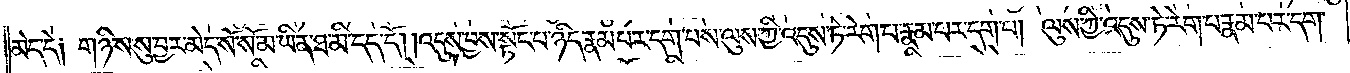མེད་དེ༑ གཉིས་སུ་བྱར་མེད་སོ་སོ་མ་ཡིན་ཐ་མི་དད་དོ། །འདུས་བྱས་སྟོང་པ་ཉིད་རྣམ་པར་དག་པས་ལུས་ཀྱི་འདུས་ཏེ་རེག་པ་རྣམ་པར་དག་པ། ལུས་ཀྱི་འདུས་ཏེ་རེག་པ་རྣམ་པར་དག་
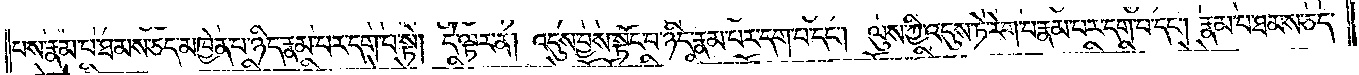པས་རྣམ་པ་ཐམས་ཅད་མཁྱེན་པ་ཉིད་རྣམ་པར་དག་པ་སྟེ། དེ་ལྟར་ན། འདུས་བྱས་སྟོང་པ་ཉིད་རྣམ་པར་དག་པ་དང༌། ལུས་ཀྱི་འདུས་ཏེ་རེག་པ་རྣམ་པར་དག་པ་དང༌། རྣམ་པ་ཐམས་ཅད་
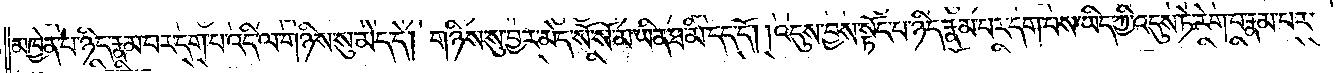མཁྱེན་པ་ཉིད་རྣམ་པར་དག་པ་འདི་ལ་གཉིས་སུ་མེད་དེ། གཉིས་སུ་བྱར་མེད་སོ་སོ་མ་ཡིན་ཐ་མི་དད་དོ། །འདུས་བྱས་སྟོང་པ་ཉིད་རྣམ་པར་དག་པས་ཡིད་ཀྱི་འདུས་ཏེ་རེག་པ་རྣམ་པར་
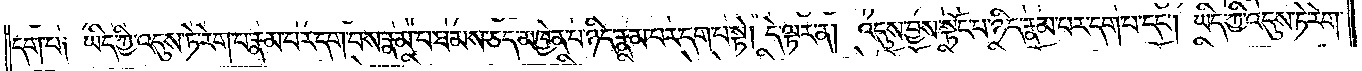དག་པ༑ ཡིད་ཀྱི་འདུས་ཏེ་རེག་པ་རྣམ་པར་དག་པས་རྣམ་པ་ཐམས་ཅད་མཁྱེན་པ་ཉིད་རྣམ་པར་དག་པ་སྟེ། དེ་ལྟར་ན། འདུས་བྱས་སྟོང་པ་ཉིད་རྣམ་པར་དག་པ་དང༌། ཡིད་ཀྱི་འདུས་ཏེ་རེག་
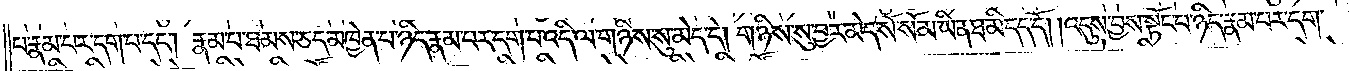པ་རྣམ་པར་དག་པ་དང༌། རྣམ་པ་ཐམས་ཅད་མཁྱེན་པ་ཉིད་རྣམ་པར་དག་པ་འདི་ལ་གཉིས་སུ་མེད་དེ། གཉིས་སུ་བྱར་མེད་སོ་སོ་མ་ཡིན་ཐ་མི་དད་དོ། །འདུས་བྱས་སྟོང་པ་ཉིད་རྣམ་པར་དག་
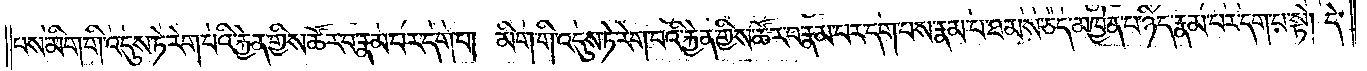པས་མིག་གི་འདུས་ཏེ་རེག་པའི་རྐྱེན་གྱིས་ཚོར་བ་རྣམ་པར་དག་པ། མིག་གི་འདུས་ཏེ་རེག་པའི་རྐྱེན་གྱིས་ཚོར་བ་རྣམ་པར་དག་པས་རྣམ་པ་ཐམས་ཅད་མཁྱེན་པ་ཉིད་རྣམ་པར་དག་པ་སྟེ། དེ་
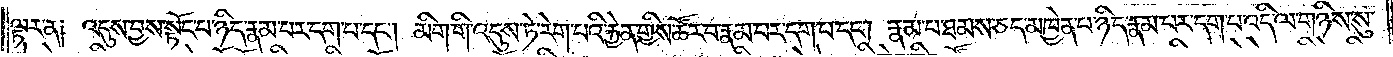ལྟར་ན༑ འདུས་བྱས་སྟོང་པ་ཉིད་རྣམ་པར་དག་པ་དང༌། མིག་གི་འདུས་ཏེ་རེག་པའི་རྐྱེན་གྱིས་ཚོར་བ་རྣམ་པར་དག་པ་དང༌། རྣམ་པ་ཐམས་ཅད་མཁྱེན་པ་ཉིད་རྣམ་པར་དག་པ་འདི་ལ་གཉིས་སུ་
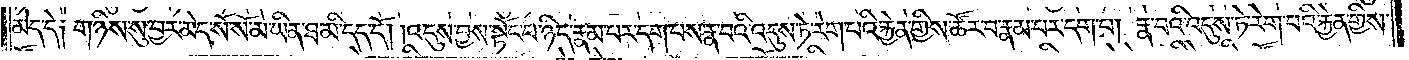མེད་དེ༑ གཉིས་སུ་བྱར་མེད་སོ་སོ་མ་ཡིན་ཐ་མི་དད་དོ། །འདུས་བྱས་སྟོང་པ་ཉིད་རྣམ་པར་དག་པས་རྣ་བའི་འདུས་ཏེ་རེག་པའི་རྐྱེན་གྱིས་ཚོར་བ་རྣམ་པར་དག་པ། རྣ་བའི་འདུས་ཏེ་རེག་པའི་རྐྱེན་གྱིས་
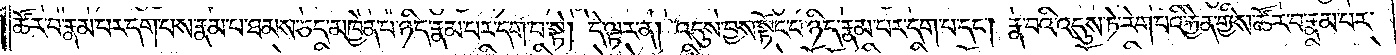ཚོར་བ་རྣམ་པར་དག་པས་རྣམ་པ་ཐམས་ཅད་མཁྱེན་པ་ཉིད་རྣམ་པར་དག་པ་སྟེ། དེ་ལྟར་ན། འདུས་བྱས་སྟོང་པ་ཉིད་རྣམ་པར་དག་པ་དང༌། རྣ་བའི་འདུས་ཏེ་རེག་པའི་རྐྱེན་གྱིས་ཚོར་བ་རྣམ་པར་
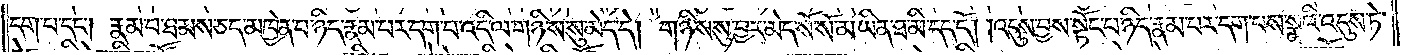དག་པ་དང༌། རྣམ་པ་ཐམས་ཅད་མཁྱེན་པ་ཉིད་རྣམ་པར་དག་པ་འདི་ལ་གཉིས་སུ་མེད་དེ། གཉིས་སུ་བྱར་མེད་སོ་སོ་མ་ཡིན་ཐ་མི་དད་དོ། །འདུས་བྱས་སྟོང་པ་ཉིད་རྣམ་པར་དག་པས་སྣའི་འདུས་ཏེ་
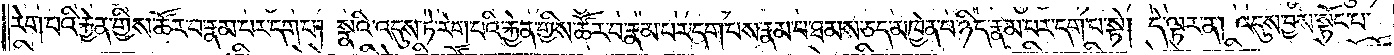རེག་པའི་རྐྱེན་གྱིས་ཚོར་བ་རྣམ་པར་དག་པ། སྣའི་འདུས་ཏེ་རེག་པའི་རྐྱེན་གྱིས་ཚོར་བ་རྣམ་པར་དག་པས་རྣམ་པ་ཐམས་ཅད་མཁྱེན་པ་ཉིད་རྣམ་པར་དག་པ་སྟེ། དེ་ལྟར་ན། འདུས་བྱས་སྟོང་པ་
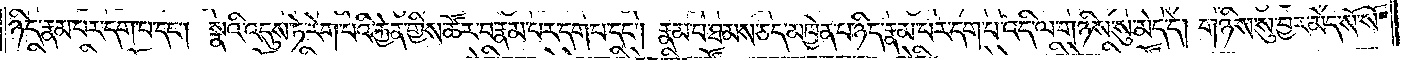ཉིད་རྣམ་པར་དག་པ་དང༌། སྣའི་འདུས་ཏེ་རེག་པའི་རྐྱེན་གྱིས་ཚོར་བ་རྣམ་པར་དག་པ་དང༌། རྣམ་པ་ཐམས་ཅད་མཁྱེན་པ་ཉིད་རྣམ་པར་དག་པ་འདི་ལ་གཉིས་སུ་མེད་དེ། གཉིས་སུ་བྱར་མེད་སོ་སོ་
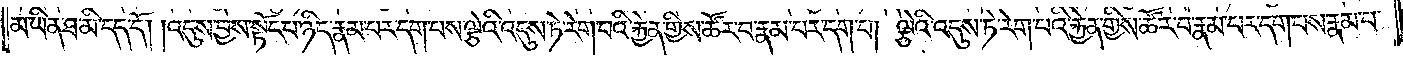མ་ཡིན་ཐ་མི་དད་དོ། །འདུས་བྱས་སྟོང་པ་ཉིད་རྣམ་པར་དག་པས་ལྕེའི་འདུས་ཏེ་རེག་པའི་རྐྱེན་གྱིས་ཚོར་བ་རྣམ་པར་དག་པ། ལྕེའི་འདུས་ཏེ་རེག་པའི་རྐྱེན་གྱིས་ཚོར་བ་རྣམ་པར་དག་པས་རྣམ་པ་
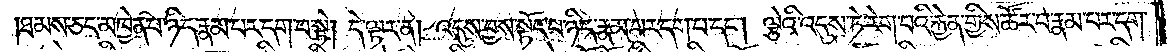ཐམས་ཅད་མཁྱེན་པ་ཉིད་རྣམ་པར་དག་པ་སྟེ། དེ་ལྟར་ན། འདུས་བྱས་སྟོང་པ་ཉིད་རྣམ་པར་དག་པ་དང༌། ལྕེའི་འདུས་ཏེ་རེག་པའི་རྐྱེན་གྱིས་ཚོར་བ་རྣམ་པར་དག་
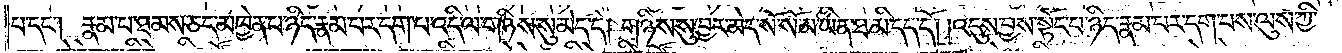པ་དང༌། རྣམ་པ་ཐམས་ཅད་མཁྱེན་པ་ཉིད་རྣམ་པར་དག་པ་འདི་ལ་གཉིས་སུ་མེད་དེ། གཉིས་སུ་བྱར་མེད་སོ་སོ་མ་ཡིན་ཐ་མི་དད་དོ། །འདུས་བྱས་སྟོང་པ་ཉིད་རྣམ་པར་དག་པས་ལུས་ཀྱི་
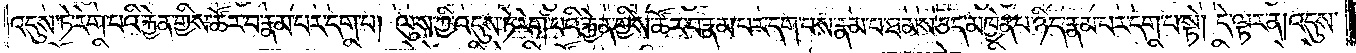འདུས་ཏེ་རེག་པའི་རྐྱེན་གྱིས་ཚོར་བ་རྣམ་པར་དག་པ། ལུས་ཀྱི་འདུས་ཏེ་རེག་པའི་རྐྱེན་གྱིས་ཚོར་བ་རྣམ་པར་དག་པས་རྣམ་པ་ཐམས་ཅད་མཁྱེན་པ་ཉིད་རྣམ་པར་དག་པ་སྟེ། དེ་ལྟར་ན། འདུས་
